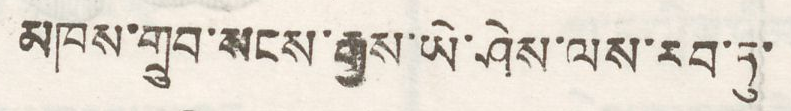མཁས་གྲུབ་སངས་རྒྱས་ཡེ་ཤེས་ལས་རབ་ཏུ་
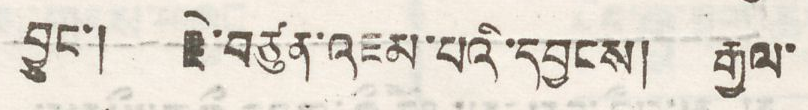བྱུང་། རྗེ་བཙུན་འཇམ་པའི་དབྱངས། རྒྱལ་
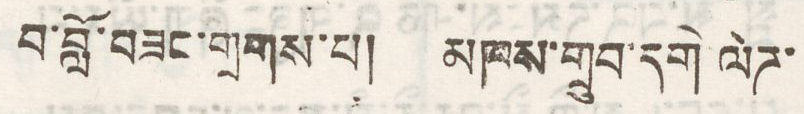བ་བློ་བཟང་གྲགས་པ། མཁས་གྲུབ་དགེ་ལེཌ་
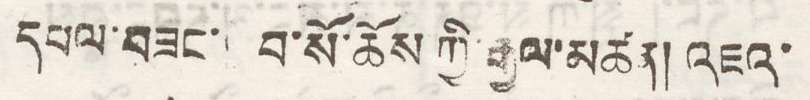དཔལ་བཟང་ བ་སོ་ཆོས ཀྱི་རྒྱལ་མཚན། འཇའ་
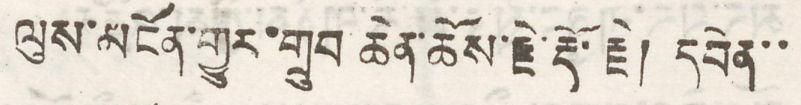ལུས་མངོན་གྱུར་གྲུབ ཆེན་ཆོས་རྗེ་རྡོ་རྗེ། དབེན་་
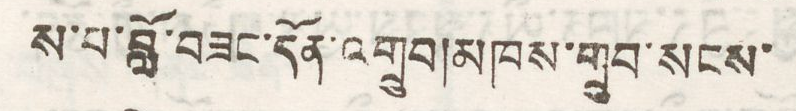ས་པ་བློ་བཟང་དོན་གྲུབ།མཁས་གྲུབ་སངས་
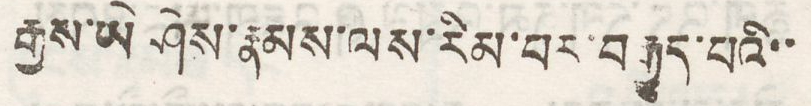རྒྱས་ཡེ ཤེས་རྣམས་ལས་རིམ་པར་བརྒྱུད་པའི་་
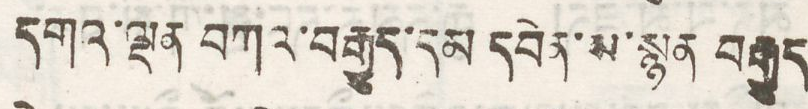དགའ་ལྡན བཀའ་བརྒྱུད་དམ དབེན་ས་སྙན བརྒྱུད
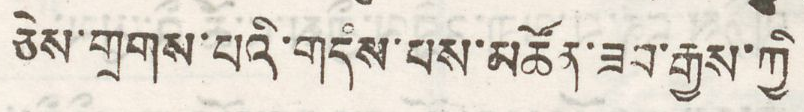ཅེས་གྲགས་པའི་གདཾས་པས་མཚོན་ཟབ་རྒྱས་ཀྱི
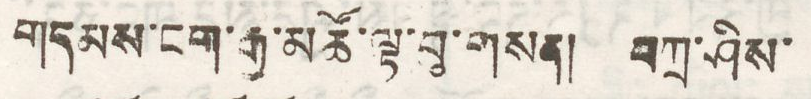གདམས་ངག་རྒྱ་མཚོ་ལྟ་བུ་གསན། བཀྲ་ཤིས་
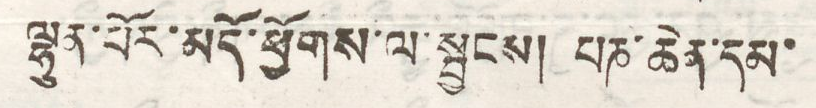ལྷུན་པོར་མདོ་ཕྱོགས་ལ་སྦྱངས། པཎ་ཆེན་དམ་
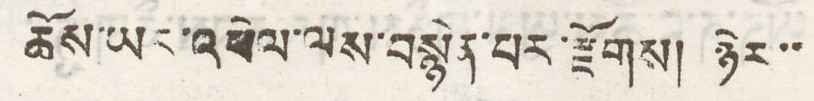ཆོས་ཡང་འཕེལ་ལས་བསྙེན་པར་རྫོགས། ཉེར་་
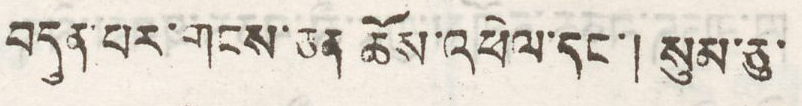བདུན་པར་གངས་ཅན ཆོས་འཕེལ་དང་། སུམ་ཅུ་
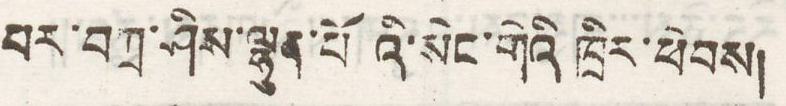པར་བཀྲ་ཤིས་ལྷུན་པོའི་སེང་གེའི ཁྲིར་ཕེབས།
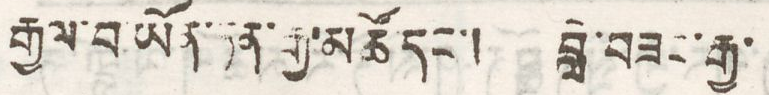རྒྱལ་བ་ཡོན་ཏན་རྒྱ་མཚོ་དང་། བློ་བཟང་རྒྱ་
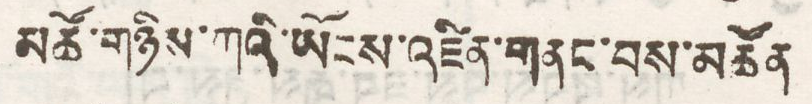མཚོ་གཉིས་ཀའི་ཡོངས་འཛིན་གནང་པས་མཚོན
